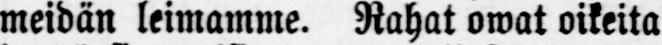meidän leimamme. Rahat owat oikeita
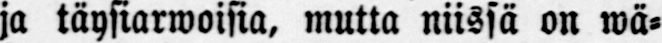ja täysiarwoisia, mutta niissä on wä-
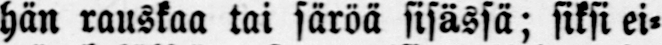hän rauskaa tai säröä sisässä; siksi ei-
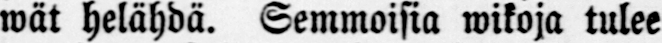wät helähdä. Semmoisia wikoja tulee
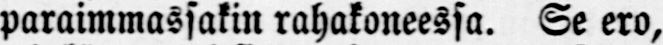paraimmassakin rahakoneessa. Se ero,
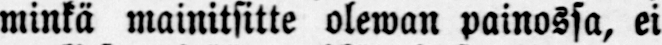minkä mainitsitte olewan painossa, ei
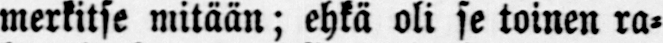merkitse mitään; ehkä oli se toinen ra-
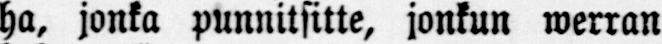ha, jonka punnitsitte, jonkun werran
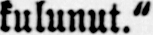kulunut."
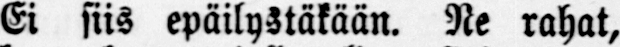Ei siis epäilystäkään. Ne rahat,
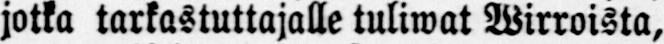jotka tarkastuttajalle tuliwat Wirroista,
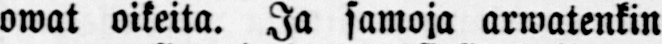owat oikeita. Ja samoja arwatenkin
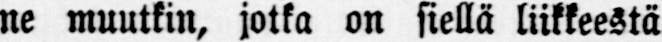ne muutkin, jotka on siellä liikkeestä
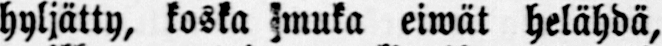hyljätty, koska muka eiwät helähdä,
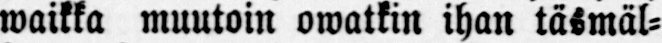maikka muutoin owatkin ihan täsmäl-
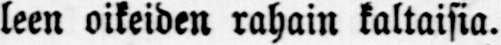leen oikeiden rahain kaltaisia.
